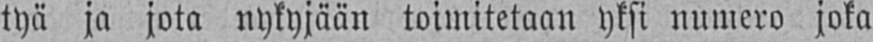tyä ja jota nykyjään toimitetaan yksi numero joka
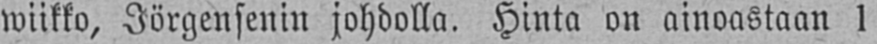wiikko, Jörgensenin johdolla. Hinta on ainoastaan 1
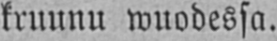kruunu wuodessa.
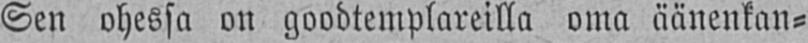Sen ohessa on goodtemplareilla oma äänenkan-
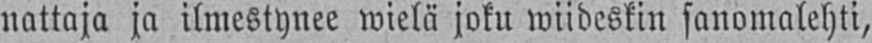nattaja ja ilmestynee wielä joku wiideskin sanomalehti,
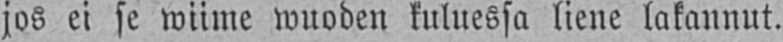jos ei se wiime wuoden kuluessa liene lakannut.
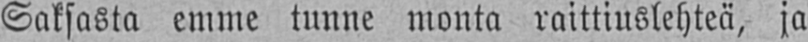Saksasta emme tunne monta raittiuslehteä, ja
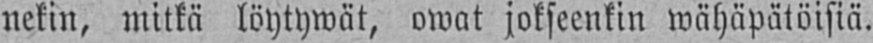nekin, mitkä löytywät, owat jokseenkin wähäpätöisiä.
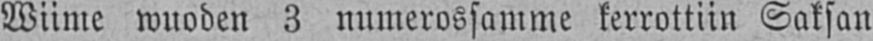Wiime wuoden 3 numerossamme kerrottiin Saksan
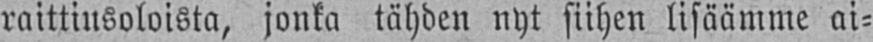raittiusoloista, jonka tähden nyt siihen lisäämme ai-
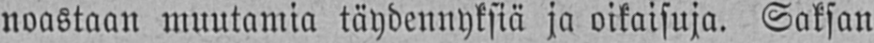noastaan muutamia täydennyksiä ja oikaisuja. Saksan
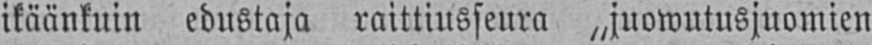ikäänkuin edustaja raittiusseura „juowutusjuomien
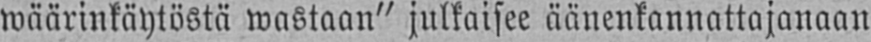wäärinkäytöstä wastaan" julkaisee äänenkannattajanaan
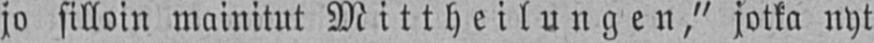jo silloin mainitut Mittheilungen," jotka nyt
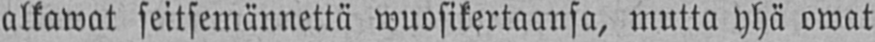alkawat seitsemännettä wuosikertaansa, mutta yhä owat
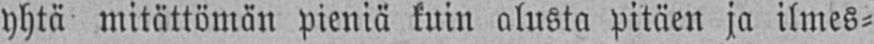yhtä mitättömän pieniä kuin alusta pitäen ja ilmes-
